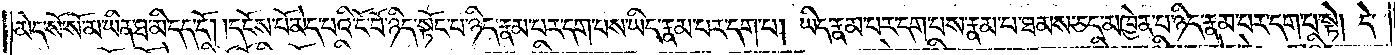མེད་སོ་སོ་མ་ཡིན་ཐ་མི་དད་དོ། །དངོས་པོ་མེད་པའི་ངོ་བོ་ཉིད་སྟོང་པ་ཉིད་རྣམ་པར་དག་པས་ཡིད་རྣམ་པར་དག་པ། ཡིད་རྣམ་པར་དག་པས་རྣམ་པ་ཐམས་ཅད་མཁྱེན་པ་ཉིད་རྣམ་པར་དག་པ་སྟེ། དེ་
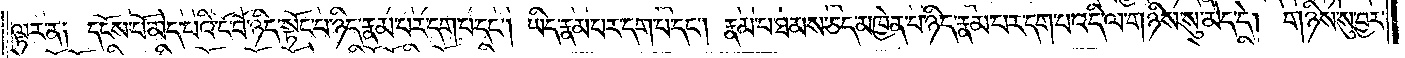ལྟར་ན༑ དངོས་པོ་མེད་པའི་ངོ་བོ་ཉིད་སྟོང་པ་ཉིད་རྣམ་པར་དག་པ་དང༌། ཡིད་རྣམ་པར་དག་པ་དང༌། རྣམ་པ་ཐམས་ཅད་མཁྱེན་པ་ཉིད་རྣམ་པར་དག་པ་འདི་ལ་གཉིས་སུ་མེད་དེ། གཉིས་སུ་བྱར་
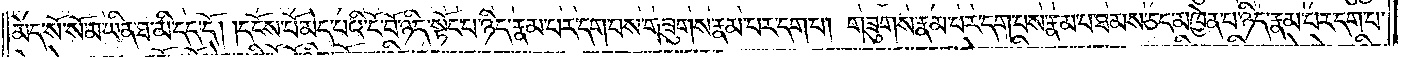མེད་སོ་སོ་མ་ཡིན་ཐ་མི་དད་དོ། །དངོས་པོ་མེད་པའི་ངོ་བོ་ཉིད་སྟོང་པ་ཉིད་རྣམ་པར་དག་པས་གཟུགས་རྣམ་པར་དག་པ། གཟུགས་རྣམ་པར་དག་པས་རྣམ་པ་ཐམས་ཅད་མཁྱེན་པ་ཉིད་རྣམ་པར་དག་པ་
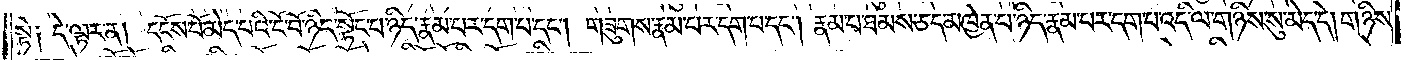སྟེ༑ དེ་ལྟར་ན། དངོས་པོ་མེད་པའི་ངོ་བོ་ཉིད་སྟོང་པ་ཉིད་རྣམ་པར་དག་པ་དང༌། གཟུགས་རྣམ་པར་དག་པ་དང༌། རྣམ་པ་ཐམས་ཅད་མཁྱེན་པ་ཉིད་རྣམ་པར་དག་པ་འདི་ལ་གཉིས་སུ་མེད་དེ། གཉིས་
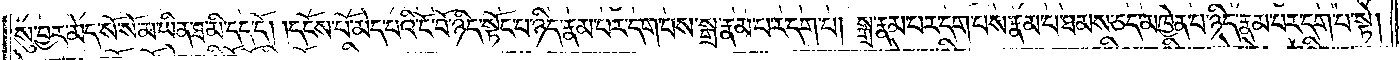སུ་བྱར་མེད་སོ་སོ་མ་ཡིན་ཐ་མི་དད་དོ། །དངོས་པོ་མེད་པའི་ངོ་བོ་ཉིད་སྟོང་པ་ཉིད་རྣམ་པར་དག་པས་སྒྲ་རྣམ་པར་དག་པ། སྒྲ་རྣམ་པར་དག་པས་རྣམ་པ་ཐམས་ཅད་མཁྱེན་པ་ཉིད་རྣམ་པར་དག་པ་སྟེ།
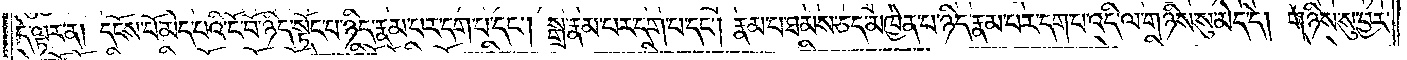དེ་ལྟར་ན། དངོས་པོ་མེད་པའི་ངོ་བོ་ཉིད་སྟོང་པ་ཉིད་རྣམ་པར་དག་པ་དང༌། སྒྲ་རྣམ་པར་དག་པ་དང༌། རྣམ་པ་ཐམས་ཅད་མཁྱེན་པ་ཉིད་རྣམ་པར་དག་པ་འདི་ལ་གཉིས་སུ་མེད་དེ། གཉིས་སུ་བྱར་
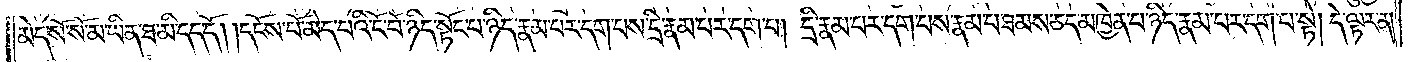མེད་སོ་སོ་མ་ཡིན་ཐ་མི་དད་དོ། །དངོས་པོ་མེད་པའི་ངོ་བོ་ཉིད་སྟོང་པ་ཉིད་རྣམ་པར་དག་པས་དྲི་རྣམ་པར་དག་པ། དྲི་རྣམ་པར་དག་པས་རྣམ་པ་ཐམས་ཅད་མཁྱེན་པ་ཉིད་རྣམ་པར་དག་པ་སྟེ། དེ་ལྟར་ན།
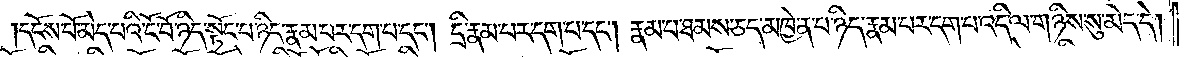དངོས་པོ་མེད་པའི་ངོ་བོ་ཉིད་སྟོང་པ་ཉིད་རྣམ་པར་དག་པ་དང༌། དྲི་རྣམ་པར་དག་པ་དང༌། རྣམ་པ་ཐམས་ཅད་མཁྱེན་པ་ཉིད་རྣམ་པར་དག་པ་འདི་ལ་གཉིས་སུ་མེད་དེ།
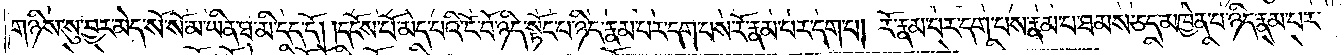གཉིས་སུ་བྱར་མེད་སོ་སོ་མ་ཡིན་ཐ་མི་དད་དོ། །དངོས་པོ་མེད་པའི་ངོ་བོ་ཉིད་སྟོང་པ་ཉིད་རྣམ་པར་དག་པས་རོ་རྣམ་པར་དག་པ། རོ་རྣམ་པར་དག་པས་རྣམ་པ་ཐམས་ཅད་མཁྱེན་པ་ཉིད་རྣམ་པར་
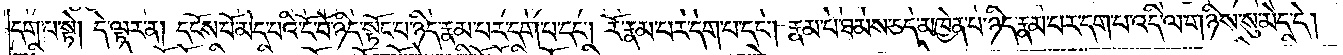དག་པ་སྟེ། དེ་ལྟར་ན། དངོས་པོ་མེད་པའི་ངོ་བོ་ཉིད་སྟོང་པ་ཉིད་རྣམ་པར་དག་པ་དང༌། རོ་རྣམ་པར་དག་པ་དང༌། རྣམ་པ་ཐམས་ཅད་མཁྱེན་པ་ཉིད་རྣམ་པར་དག་པ་འདི་ལ་གཉིས་སུ་མེད་དེ།
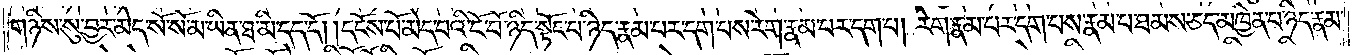གཉིས་སུ་བྱར་མེད་སོ་སོ་མ་ཡིན་ཐ་མི་དད་དོ། །དངོས་པོ་མེད་པའི་ངོ་བོ་ཉིད་སྟོང་པ་ཉིད་རྣམ་པར་དག་པས་རེག་རྣམ་པར་དག་པ། རེག་རྣམ་པར་དག་པས་རྣམ་པ་ཐམས་ཅད་མཁྱེན་པ་ཉིད་རྣམ་
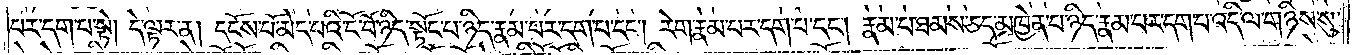པར་དག་པ་སྟེ། དེ་ལྟར་ན། དངོས་པོ་མེད་པའི་ངོ་བོ་ཉིད་སྟོང་པ་ཉིད་རྣམ་པར་དག་པ་དང༌། རེག་རྣམ་པར་དག་པ་དང༌། རྣམ་པ་ཐམས་ཅད་མཁྱེན་པ་ཉིད་རྣམ་པར་དག་པ་འདི་ལ་གཉིས་སུ་
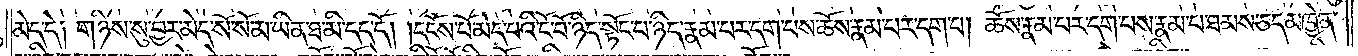མེད་དེ༑ གཉིས་སུ་བྱར་མེད་སོ་སོ་མ་ཡིན་ཐ་མི་དད་དོ། །དངོས་པོ་མེད་པའི་ངོ་བོ་ཉིད་སྟོང་པ་ཉིད་རྣམ་པར་དག་པས་ཆོས་རྣམ་པར་དག་པ། ཆོས་རྣམ་པར་དག་པས་རྣམ་པ་ཐམས་ཅད་མཁྱེན་
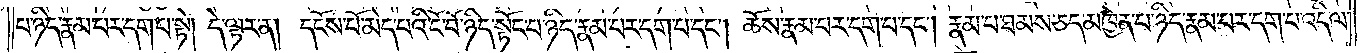པ་ཉིད་རྣམ་པར་དག་པ་སྟེ། དེ་ལྟར་ན། དངོས་པོ་མེད་པའི་ངོ་བོ་ཉིད་སྟོང་པ་ཉིད་རྣམ་པར་དག་པ་དང༌། ཆོས་རྣམ་པར་དག་པ་དང༌། རྣམ་པ་ཐམས་ཅད་མཁྱེན་པ་ཉིད་རྣམ་པར་དག་པ་འདི་ལ་
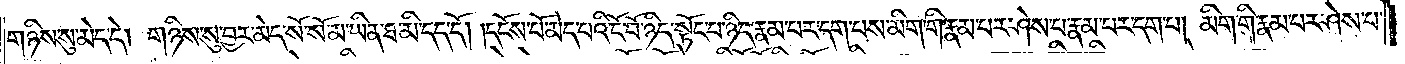གཉིས་སུ་མེད་དེ། གཉིས་སུ་བྱར་མེད་སོ་སོ་མ་ཡིན་ཐ་མི་དད་དོ། །དངོས་པོ་མེད་པའི་ངོ་བོ་ཉིད་སྟོང་པ་ཉིད་རྣམ་པར་དག་པས་མིག་གི་རྣམ་པར་ཤེས་པ་རྣམ་པར་དག་པ། མིག་གི་རྣམ་པར་ཤེས་པ་
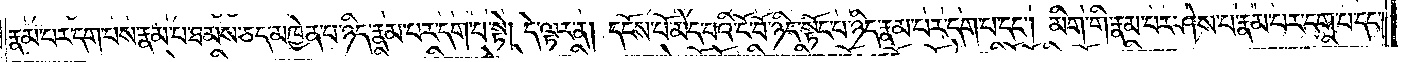རྣམ་པར་དག་པས་རྣམ་པ་ཐམས་ཅད་མཁྱེན་པ་ཉིད་རྣམ་པར་དག་པ་སྟེ། དེ་ལྟར་ན། དངོས་པོ་མེད་པའི་ངོ་བོ་ཉིད་སྟོང་པ་ཉིད་རྣམ་པར་དག་པ་དང༌། མིག་གི་རྣམ་པར་ཤེས་པ་རྣམ་པར་དག་པ་དང༌།
